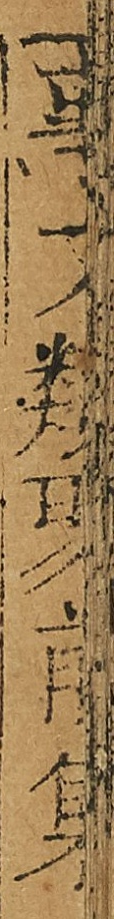事文類聚前集
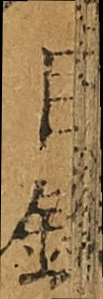目錄
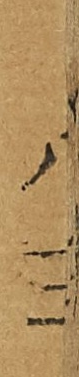八三
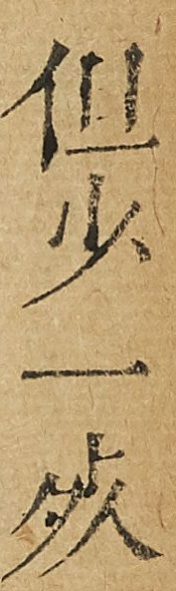但少一死
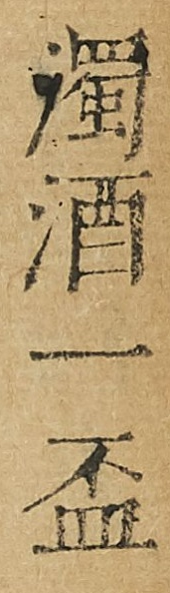濁酒一盃
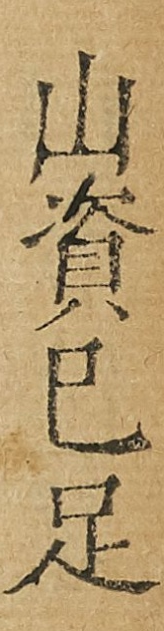山資已足
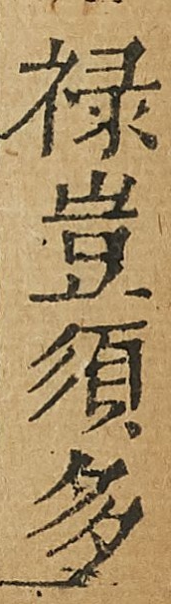祿豈須多
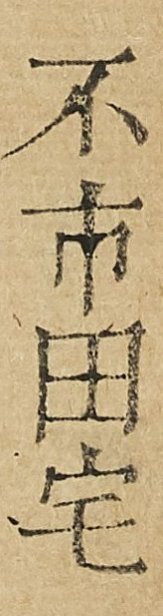不市田宅
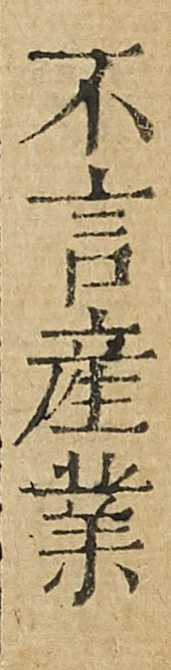不言産業
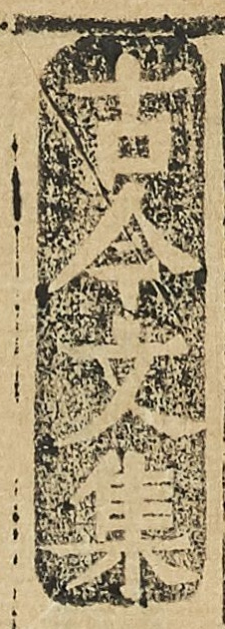古今文集
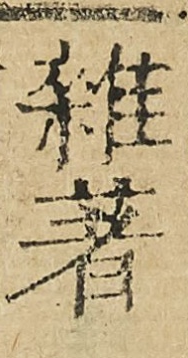雜著
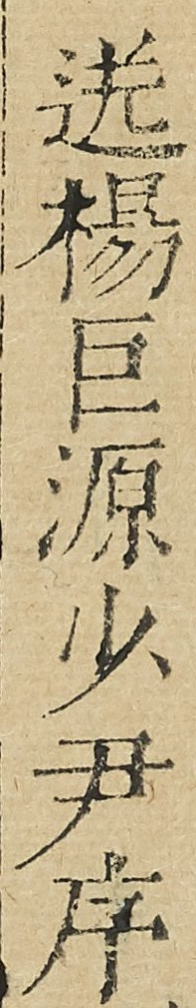送楊巨源少尹序
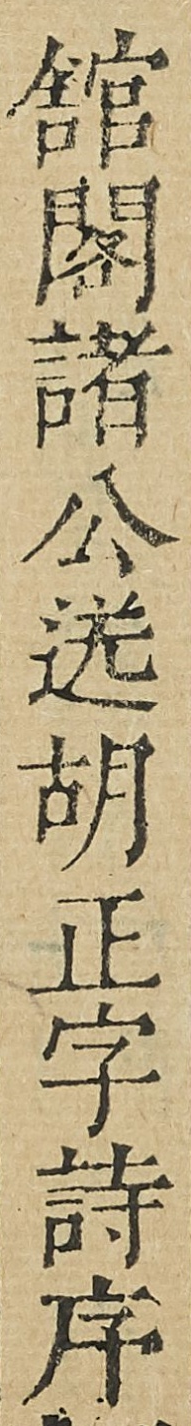舘閣諸公送胡正字詩序
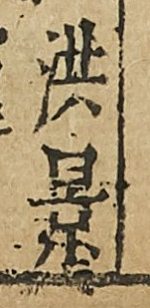洪景
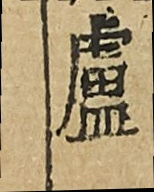盧
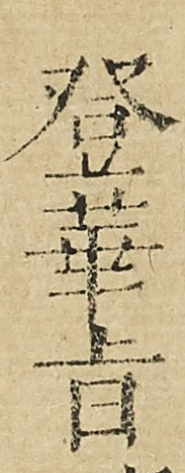登華旨
